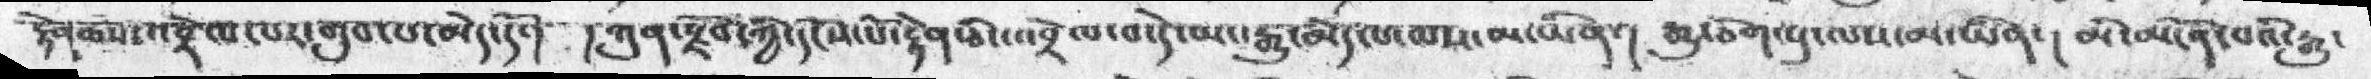རྟེན་ཆོས་འབྲེལ་པར་གྲུབ་པ་མེད་དོ་། །ཀུན་རྫོབ་ཀྱི་དངོས་པོ་རྟེན་ཅིང་འབྲེལ་བ་དེ་ཡང་རྒྱུ་མེད་པ་ལས་མ་ཡིན་། རྒྱུ་ཅིག་པུ་ལས་མ་ཡིན་། མི་མངོན་པའི་རྒྱུ་
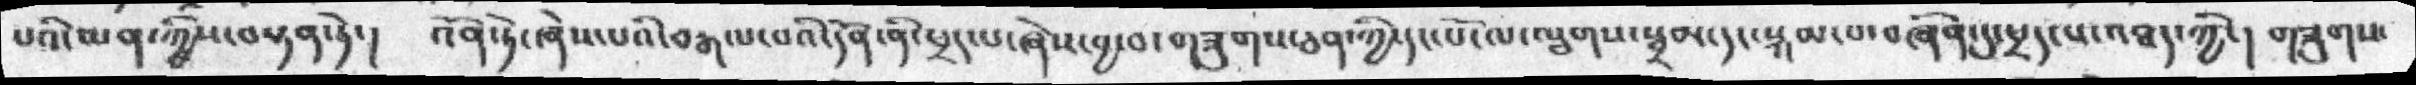པའི་མན་ཀྱིས་བསྟན་ཏེ་།  འོན་ཏེ་ཞེས་པའི་བརྒལ་བའི་དོན་ནི་ཕྲད་པ་ཞེས་བྱ་བ་གཟུགས་ཅན་ཀྱི་དང་པོ་ལ་ལྕགས་སྦྲམ་དང་སྐམ་པ་བཞིན་དུ་ཕྲད་པ་འཐད་ཀྱི་། གཟུགས་
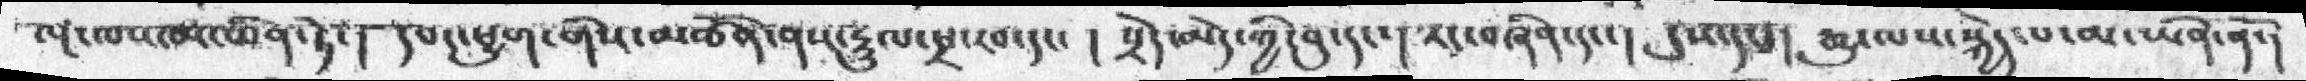ལྔ་ལས་མ་ཡིན་ཏེ་།  དབང་ཕྱུག་གིས་མཚོན་ནས་རྡུལ་ཕྲ་རབ་དང་།  སྲེད་མེད་ཀྱི་བུ་དང་། རང་བཞིན་དང་། དུས་དང་། རྒྱུ་ལས་སྐྱེད་པ་མ་ཡིན་ནོ་།
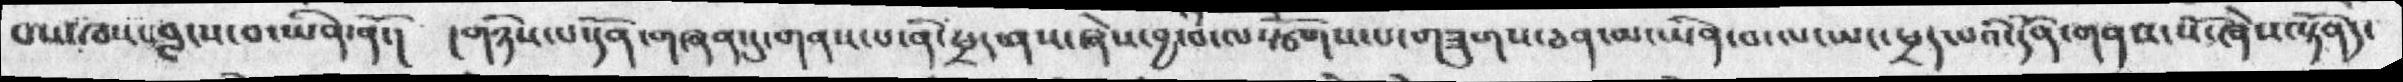བས་ཁས་བླངས་བ་ཡིན་ནོ་།  །གཉིས་པ་དོན་གཞན་དུ་གནས་པ་ནི་ཕྲད་ནས་ཞེས་བྱ་བ་ལསྩོགས་པ་གཟུགས་ཅན་མ་ཡིན་བ་ལ་ཡང་ཕྲད་པའི་དོན་གནས་སོ་ཞེས་སྟོན།་
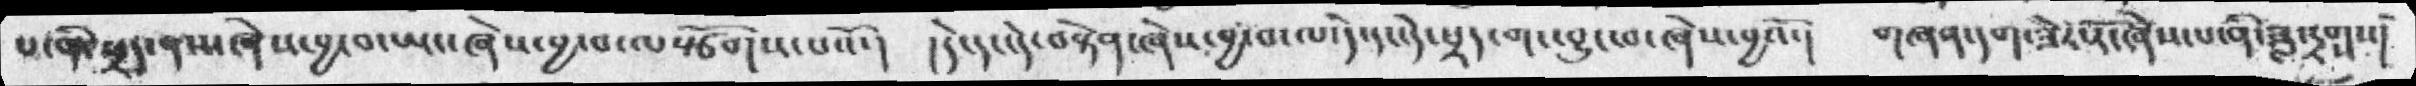པ་ནི་ཕྲད་ནས་ཞེས་བྱ་བ་ཡང་ཞེས་བྱ་བ་ལསྩོགས་པའོ་།   །དེ་དང་དེ་བསྟེན་ཞེས་བྱ་བ་ལ་དེ་དང་དེ་ཕྲད་གང་བྱུང་བ་ཞེས་བྱའོ་། གཞན་དག་ཟེར་རོ་ཞེས་པ་ནི་ཟླ་དྲགྭས།
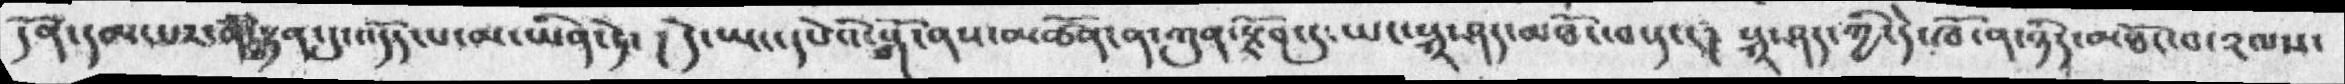དོན་དམ་པར་ནི་སྟན་དུ་འདོད་པ་མ་ཡིན་ཏེ་ ། དེ་ཡང་དཔེའི་སྒོ་ནས་མཚོན་ན་ཀུན་སྫོབ་དུ་ཡང་སྐྲ་ཤད་མཐོང་བ་དང་།   སྐྲ་ཤད་ཀྱི་དེ་ཁོ་ན་ཉིད་མཐོང་བ་༢ལས་
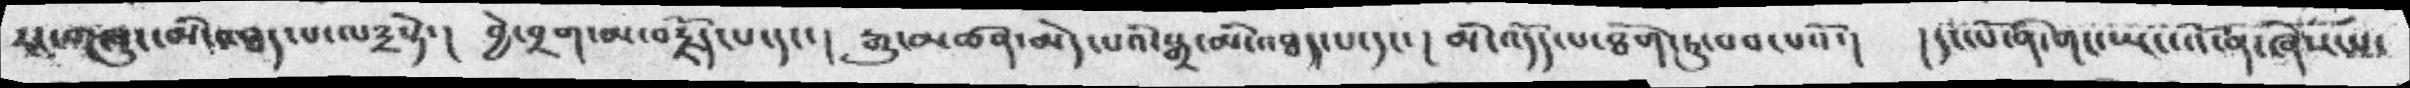རང་གཞུང་མི་འཐད་པ་ལ༣སྟེ་།   བྱེ་བྲག་མ་བརྗོད་པ་དང་།  རྒྱུ་མཚན་མེད་པའི་སྒྲ་མི་འཐད་པ་དང་། མི་འདོད་པ་ཐོག་ཏུ་བབ་པའོ་།  །དང་པོ་ནི་གང་ཡང་འོ་ན་ཞེས་པ་
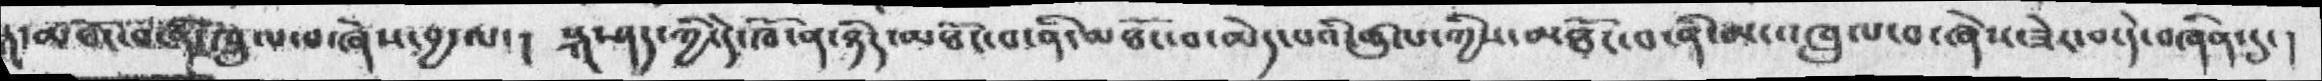ད་མཐོང་བཞི་ཁྲུལ་བ་ཞེས་བྱ་ལ་།  སྐ་ཤད་ཀྱི་དེ་ཁོ་ན་ཉིད་མཐོང་བ་ནི་མཐོང་བ་མེད་པའི་ཚུལ་གྱིས་མཐོང་བ་ནི་མ་འཁྲུལ་བ་ཞེས་ཟེར་བ་དེ་བཞིན་དུ་།
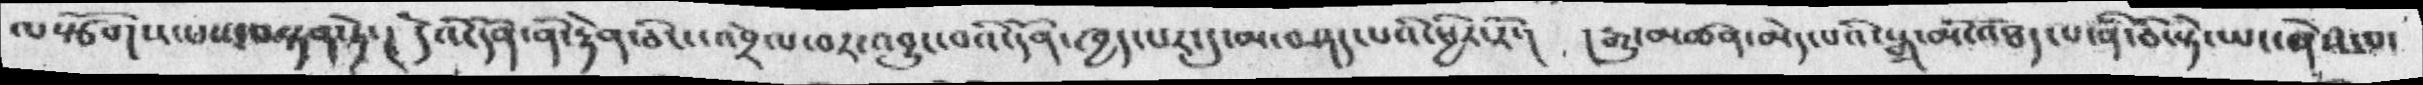ལསྩོགས་པས་བསྟན་ཏེ་།  དེའི་དོན་ནི་རྟེན་ཅིང་འབྲེལ་བར་འབྱུང་བའི་དོན་ཁྱད་པར་དུ་མ་བཤད་པའི་ཕྱིར་རོ་།   །རྒྱུ་མཚན་མེད་པའི་སྒྲ་མི་འཐད་པ་ནི་ཅི་སྟེ་ཡང་ཞེས་པ་
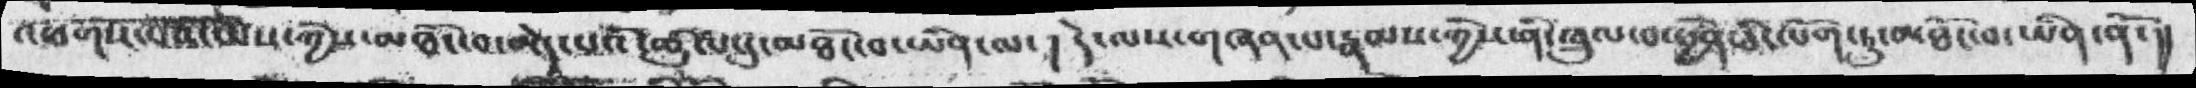འཕགས་པའི་ཡེེས་ཀྱིས་མཐོང་བ་མེད་པའི་ཚུལ་དུ་མཐོང་བ་ཡིན་ལ་ ། དེ་ལས་གཞན་པ་རྣམས་གྱིས་ནི་ཁྲུལ་བ་ཕྱིན་ཅི་ལོག་ཏུ་མཐོང་བ་ཡིན་ནོ་།།
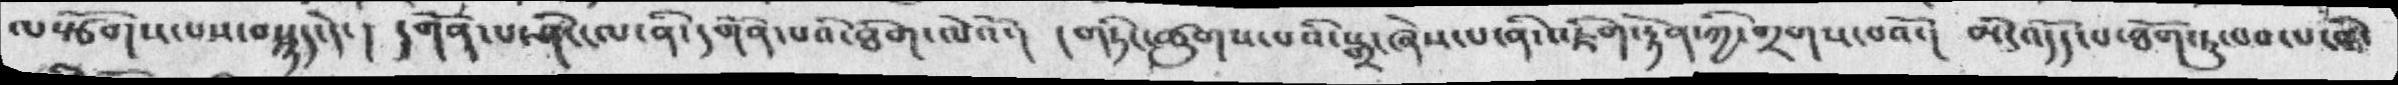ལསྩོགས་པས་བསྙད་དེ་།  དགོན་པ་ཤིང་ལ་ནི་དགོན་པའི་ཐིག་ལེའོ་།    །གཏིང་ཚུགས་པའི་སྒྲ་ཞེས་པ་ནི་འཇིག་རྟེན་ཀྱི་གྲགས་པའོ་།   མི་འདོད་པ་ཐོག་ཏུ་བབ་པ་ནི་
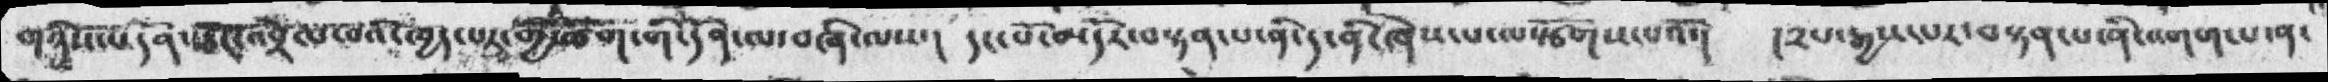གཉིས་པོ་དོན་ཅོང་འབྲེལ་བའི་ཁྱད་པར་གྱི་ཚིག་གི་དོན་ལ་བཞི་ལས་།  དང་པོ་མདོར་བསྟན་པ་ནི་ད་ནི་ཞེས་པ་ལསྩོགས་པའོ་།   །༢པ་རྒྱས་པར་བསྟན་པ་ནི་འགག་པ་ན་
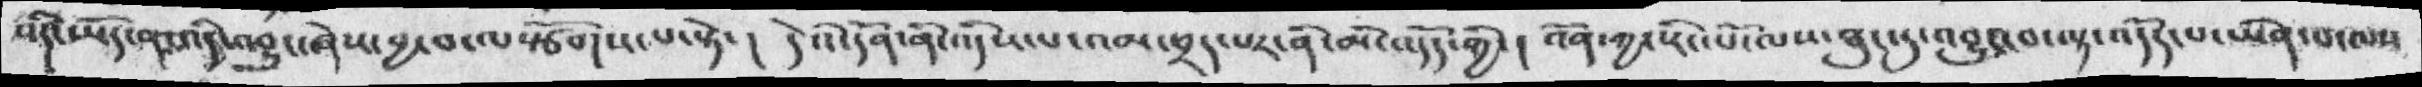འདི་ཡོད་ན་འདི་འབྱུང་ཞེས་བྱ་བ་ལསྩོགས་པ་སྟེ་།  དེའི་དོན་ནི་འདིས་པ་འམ་ཕྲད་པར་ནི་མི་འདོད་གྱི་། འོན་ཀྱང་རིང་པོ་ལས་ཐུང་དུ་འབྱུང་བ་ལྟ་འདོད་པ་ཡིན་པ་ལས་
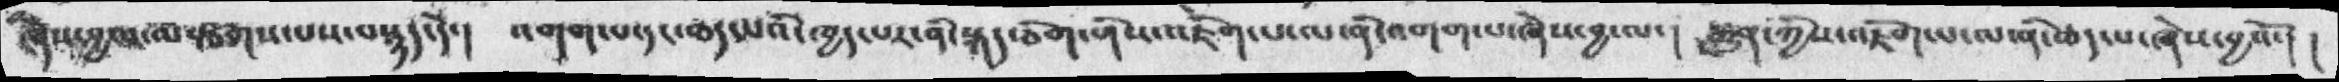ཞེས་བྱ་བ་ལསྩགས་པས་བསྙད་དེ་། འགག་པ་དང་ཆད་པའི་ཁྱད་པར་ནི་སྐད་ཅིག་གིས་འཇོག་པ་ལ་ནི་འགག་པ་ཞེས་བྱ་ལ་། རྒྱུན་ཀྱིས་འཇིག་པ་ལ་ནི་ཆད་པ་ཞེས་བྱའོ་། །
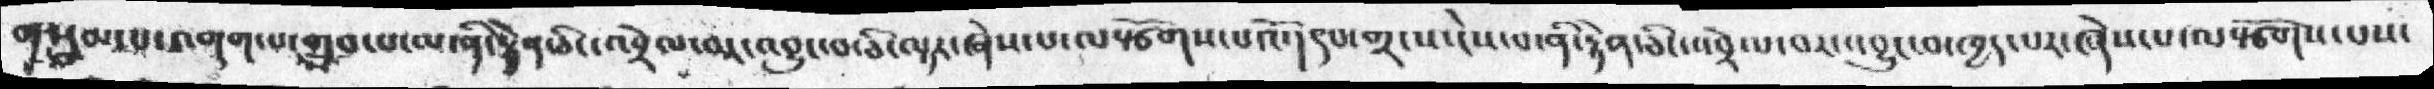གསུམ་པ་འགག་པ་གྲུབ་པ་ལ་ནི་རྟེན་ཅིང་འབྲེལ་བར་འབྱུང་བ་ཅི་ལྟར་ཞེས་པ་ལསྩོགས་པའོ་། ༩པ་གྲངས་ངེས་པ་ནི་རྟེན་ཅིང་འབྲེལ་བར་འབྱུང་བ་ཁྱད་པར་ཞེས་པ་ལསྩོགས་པས་
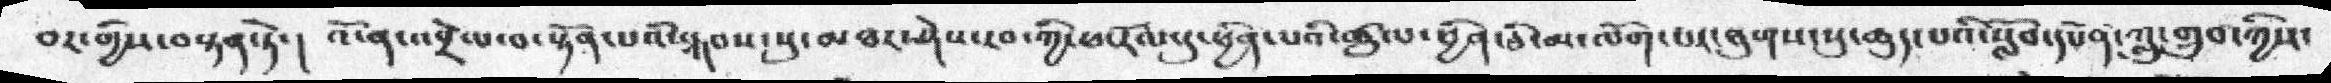བར་གྱིས་བསྟན་ཏེ་། འོ་ན་འབྲེལ་བ་སྟོན་པའི་སྐབས་སུ་མཐར་ཤེས་རབ་ཀྱི་ཕ་རོལ་དུ་ཕྱིན་པའི་ཚུལ་ཕྱིན་ཅི་མ་ལོག་པར་ཐུགས་སུ་ཆུད་པའི་སློབ་དཔོན་ཀླུ་གྲུབ་ཀྱིས་
